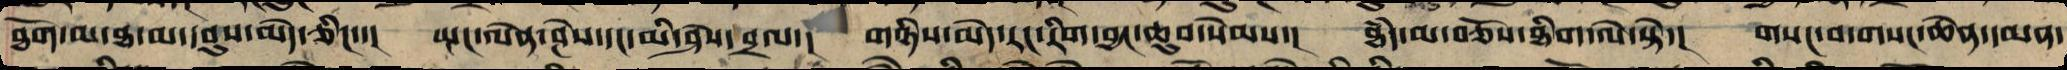ཐོག་མ་ཐ་མ་དབུས་མེད་ཅིང་་། སྤང་ལེན་ཤེས་དང་མི་ཤེས་བྲལ་། གཉིས་མེད་རང་རིག་བྱང་ཆུབ་སེམས་། ཐཾད་མ་བཅོས་ཐིག་ལེ་སྟེ་། གསང་བ་གསང་ཆེན་དམན་
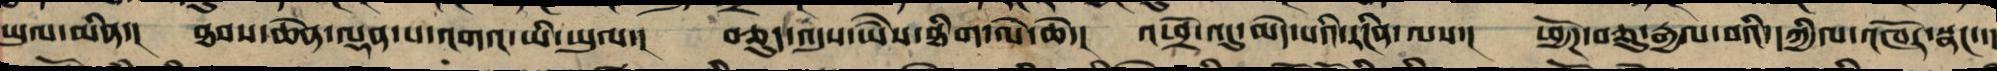ཡུལ་མིན་། ཐབས་ཆེན་ལྡན་པ་འགའ་ཡི་ཡུལ་། བཅུད་འདུས་ཡཻས་ཐིག་ལེ་ཆེ་། འཕྲོ་འདུ་མེད་པའི་རངིན་ལས་། ཕྱོགས་བཅུ་རྒྱལ་བའི་དཀྱིལ་འཁོར་སྣང་་།
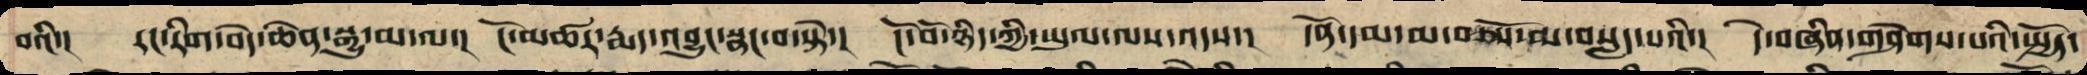བའི་། རང་རིག་བདེ་ཆེན་སྒྱུ་མ་ལ་། ངོ་མཚར་རྨད་བྱུང་སྣང་བ་སྟེ་། ངོ་བོ་ཉིད་ཀྱི་ཡུལ་ལས་འདས་། དོན་དམ་མ་བཅོས་མ་བསླད་པའི་། དེ་བཞིན་གཤེགས་པའི་སྤྱོད་
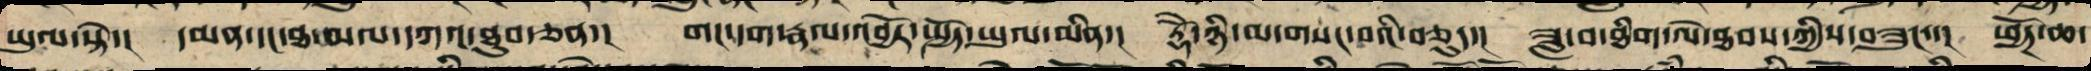ཡུལ་སྟེ་། དམན་དང་ཐ་མལ་དཀའ་ཐུབ་ཅན་། གང་དག་རྣལ་འབྱོར་སྤྱོད་ཡུལ་མིན་། རྡོེ་ཉི་མ་གསང་བའི་བཅུད་། ཟླ་བ་ཐིག་ལེ་ཐབས་ཀྱིས་བཟུ་ང་། ཕྱོཌ་ཆ་
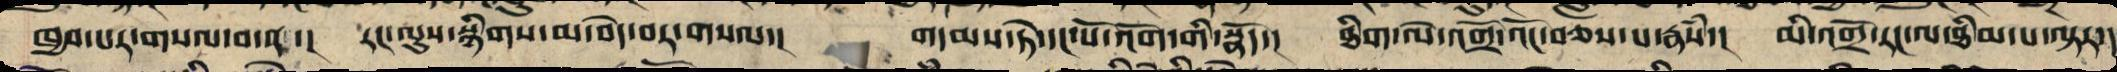ཁྱབ་པར་གསལ་བ་ན་། རང་ལུས་སྙིགས་མ་བདེ་བར་གསལ་། གདམས་ཏེ་དང་པོ་འོག་གི་སྣོད་། ཐིག་ལེ་འགྲོ་འོང་བཅས་པ་རྣཾས་། མི་འགྲོ་རང་ལ་ཐིམ་པ་ལྟར་།
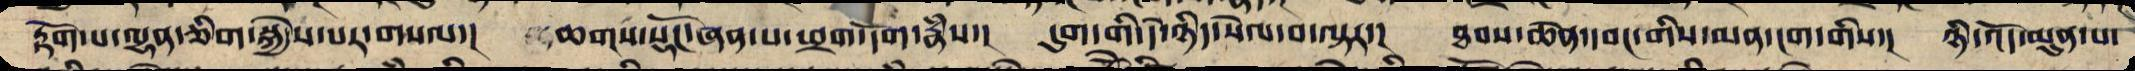རྟོག་པ་ལྷན་ཅིག་སྐྱེས་པར་གསལ་། ཆགས་སྡོང་ཞན་པ་ཕྲག་དོག་རྣཾས་། དུག་གིས་དེ་ཉིད་སེལ་བ་ལྟར་། ཐབས་ཆེན་དབང་གི་མན་ངག་གིས་། ཉི་འོད་མུན་པ་
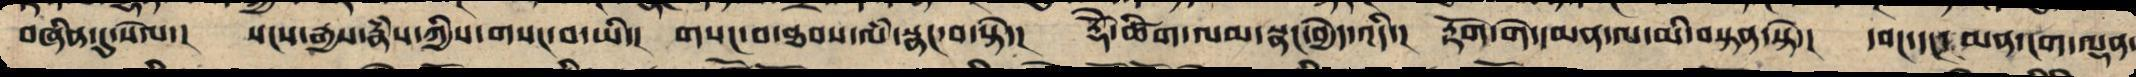བཞིན་དུ་སེལ་། སངས་རྒྱས་རྣཾས་ཀྱི་གསང་བ་ཡི་། གསང་བ་ཐབས་ལཾ་སྣང་བ་སྟེ་། རྡོེ་ཚིག་ལམ་སྣང་བྱེད་འདི་། རྟོག་གེ་དམན་ལ་མི་བསྟན་སྟེ་། དབང་དང་མན་ངག་ལྡན་
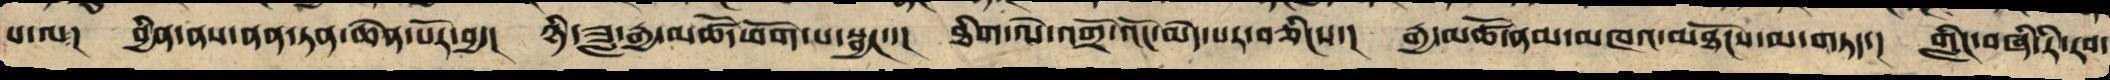པ་ལ། བྱིན་ནས་ནན་ཏན་ཆེན་པོར་བྱ་། ཉི་ཟླ་རྒྱ་མཚོ་ཕོག་པ་སྦྱང་་། ཐིག་ལེ་འགྲོ་འོང་མེད་པར་བཅིངས་། རྒྱ་མཚོ་ནམ་མཁའ་མཐོངས་ལ་གཏད་། གླིང་བཞི་རི་རབ་
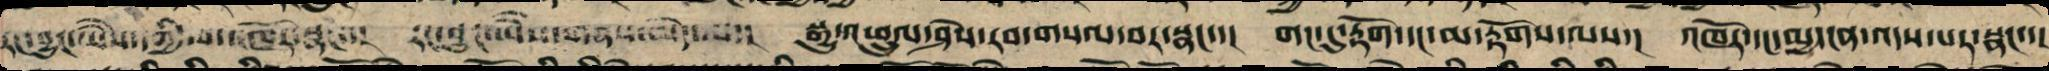རང་བྱུང་ཡཻས་དཀྱིལ་འཁོར་སྣང་། རང་བྱུང་ཡཻས་གནས་མེད་ལ་། སྒྱུ་འཕྲུལ་ཤེས་རབ་གསལ་བར་སྣང་་། གང་དུ་རྟོག་དང་མ་རྟོགས་ལས་། འཁོར་དང་མྱ་ངན་འདས་པར་སྣང་་།
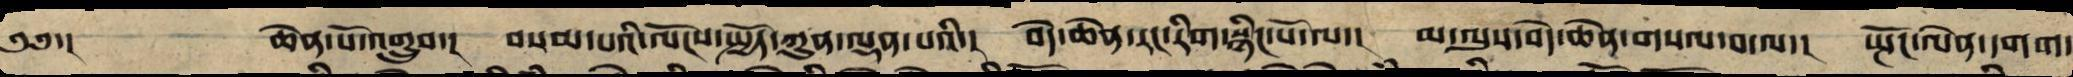༄༅་། ཆེན་པོ་འགྲུབ་། བསམ་པའི་ལོངས་སྤྱོད་ཀུན་ལྡན་པའི་། བདེ་ཆེན་རང་རིག་སྙིང་པོ་ལ་། མ་ལུས་བདེ་ཆེན་གསལ་བ་ལ་། སྤོང་ལེན་དགག་
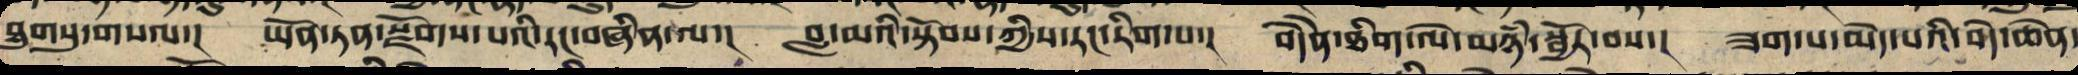ཐུགསུ་གསལ་། ཡོན་ཏན་སྫོགས་པའི་རང་བཞིན་ལ་། བླ་མའི་སྟོབས་ཀྱིས་རང་རིག་པ་། བདཻན་ཐིག་ལེ་མཉཾ་སྦྱོར་བས་། ཟག་པ་མེད་པའི་བདེ་ཆེན་
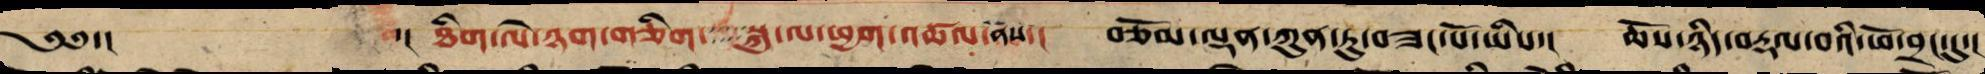༄༅་། ་། ཐིག་ལེ་ཉག་གཅིག་སྐུ་ལ་ཕྱག་འཚལ་ནས་། བཅོམ་ལྡན་ཀུན་ཏུ་བཟང་པོ་ཡིས་། ཆོས་ཉིད་བརྡལ་བའི་ཕོ་བྲང་དུ་།
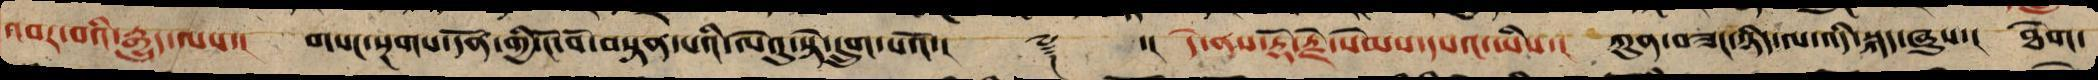འབར་བའི་རྒྱུད་ལས་། གསང་སྔགས་དོན་གྱི་ངོ་བོ་བསྟན་པའི་ལེའུ་སྟེ་དྲུག་པའོ་།། ༈ ་། དེ་ནས་རྡོ་རྗེ་སེམས་དཔའ་ཡིས་། ཀུན་བཟང་ཉིད་ལ་འདི་སྐད་ཞུས་། ཐེག་
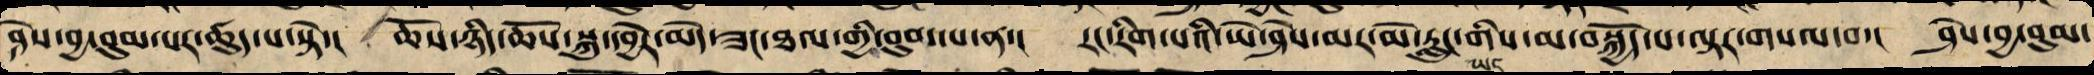ཤེས་བྱ་བུམ་པར་ཚུད་པ་སྟེ་།   ཆོས་ཉིད་ཆོས་སྐུ་དབྱེར་མེད་ཟང་ཐལ་གྱི་བུམ་པ་ན་།   རང་རིག་པའི་ཡེ་ཤེས་མར་མེ་རླུང་གིས་མ་བསྐྱོད་པ་ལྟར་གསལ་བ་།   ཤེས་བྱ་བུམ་
